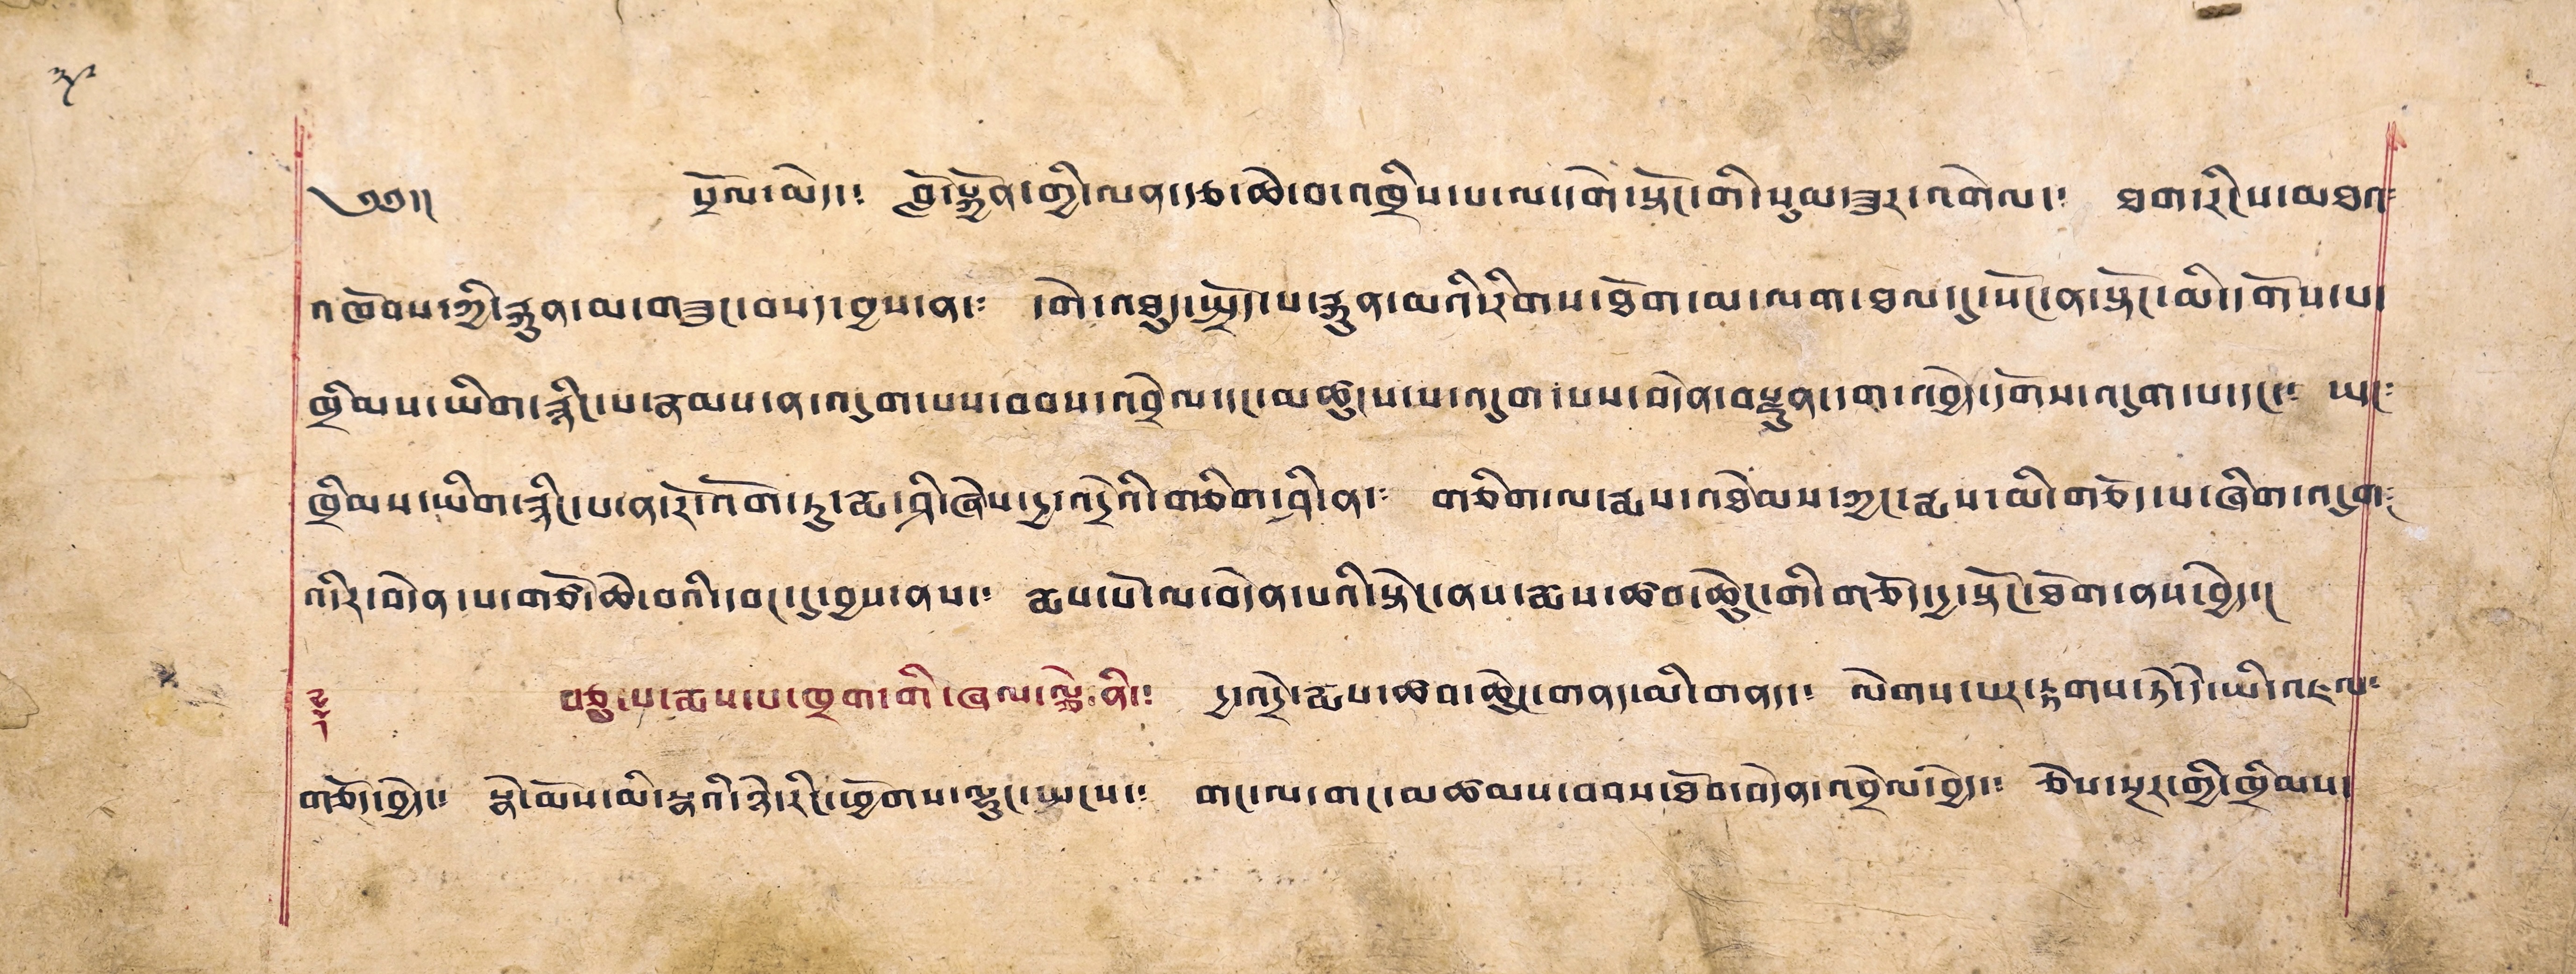༄༅།། སྲོལ་མེད་༴ བློ་སྐྱོན་གྱི་ལན་རྩ་ཆེ་བ་འཁྲིས་པ་ལ་དགེ་སྟོང་གི་སུམ་ཟུར་འགེལ་༴ ཐག་རིངས་མཐའ༴
འཁོབས་ཀྱི་རྐུན་མ་གཟུང་བསད་བྱས་ན་༴ དགེ་འཐུད་སྤྲོད་པ་རྐུན་མའི་རིགས་ཐོག་མ་ལག་ཐལ་དུ་སོང་ན་སྟོང་མི་དགོས་པ་
ཁྲིམས་ཡིག་རྙིང་པ་རྣམས་ན་འདུག་པས་བབས་འབྲེལ་དང་མཚུངས་པ་འདུག་པས་བདེན་བརྫུན་དག་འབྱེད་དོགས་འདུག་པ་དང་༴ ཡང༴
ཁྲིམས་ཡིག་རྙིང་པ་ན་རོ་འོག་ཏུ་རྨ་ཤི་ཞེས་དྱ་འདྲེའི་གཅིག་ཤི་ན་༴ གཅིག་ལ་རྨས་འཐེམས་ཀྱང་རྨས་མི་གཅོད་པ་ཞིག་འདུག་༴
འདིར་བདེན་པ་གཙོ་ཆེ་བའི་དབང་དུ་བྱས་ནས་༴ རྨས་པོ་ལ་བདེན་པའི་སྟེང་ནས་རྨས་ཚབ་ཆེུང་གི་གཅོད་དྱ་སྟོང་ཐོག་ནས་བྱེད་༴
༈ བཅུ་པ་རྨས་པ་ཁྲག་གི་ཞལ་ལྕེ་ནི་༴ དྱ་འདྲེ་རྨས་ཚབ་ཆེུང་གནད་མི་གནད་༴ ལེགས་པར་རྟགས་ཏེ་དེ་ཡི་འཇལ༴
གཅོད་བྱེད་༴ སྣེ་མོས་མི་སྣའི་ཉེ་རིང་ཕྱོགས་ལྷུང་སྤངས་༴ གང་ལ་གང་མཚམས་བབས་ཐོབ་བདེན་འབྲེལ་བྱེད་༴ ཅེས་སྔར་གྱི་ཁྲིམས་
